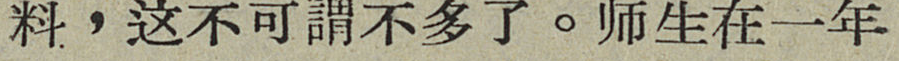料，这不可謂不多了。师生在一年
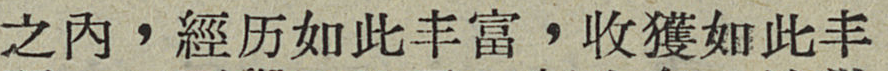之内，經历如此丰富，收穫如此丰
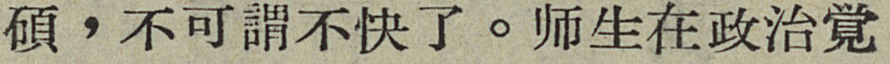碩，不可謂不快了。师生在政治覚
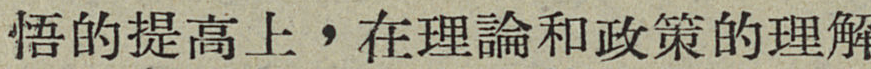悟的提高上，在理論和政策的理解
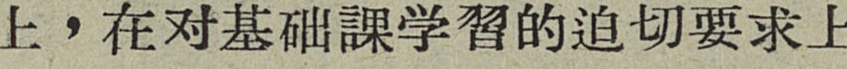上，在对基础課学習的迫切要求上
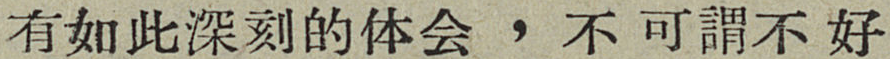有如此深刻地体会，不可謂不好
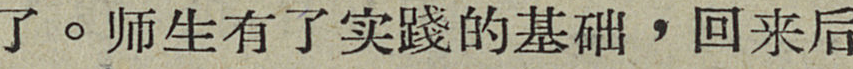了。师生有了实踐的基础，回来后
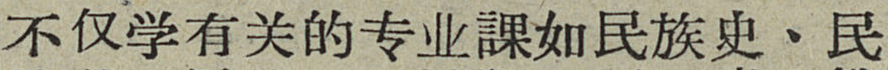不仅学有关的专业課如民族史、民
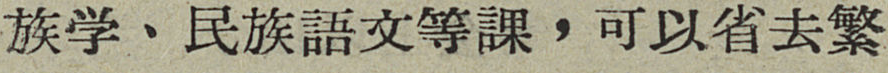族学、民族語文等課，可以省去繁
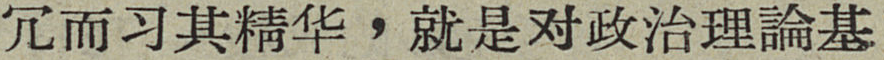冗而习其精华，就是对政治理論基
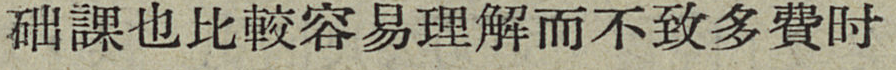础課也比較容易理解而不致多费时
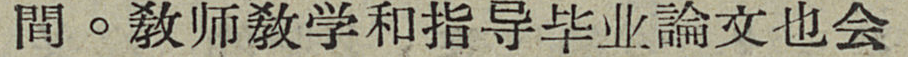間。敎师敎学和指导毕业論文也会
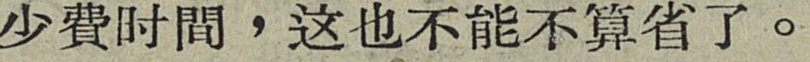少費时間，这也不能不算省了。
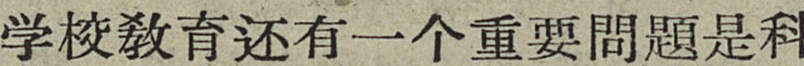学校敎育还有一个重要問題是科
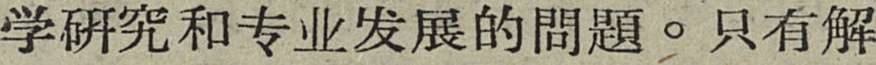学研究和专业发展的問題。只有解
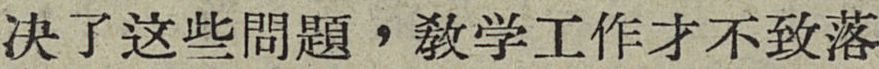决了这些問題，敎学工作才不致落
